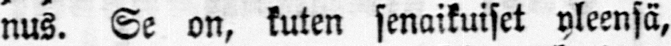nus. Se on, kuten senaikaiset yleensä,
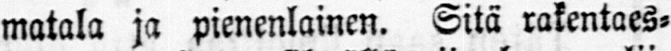matala ja pienenlainen. Sitä rakentaes-
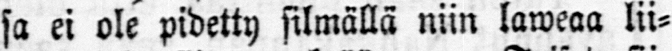sa ei ole pidetty silmällä niin laweaa lii-
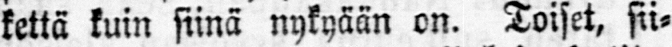kettä kuin siinä nykyään on. Toiset, sii-
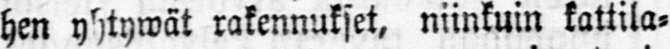hen yhtywät rakennukset, niinkuin kattila-
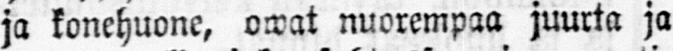ja konehuone, owat nuorempaa juurta ja
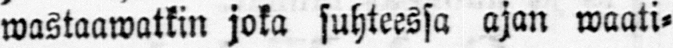wastaawatkin joka suhteessa ajan waati-
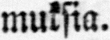muksia.
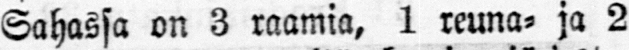Sahassa on 3 raamia, 1 reuna- ja 2
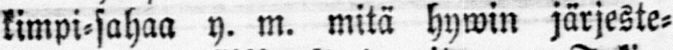kimpi-sahaa y. m. mitä hywin järjeste-
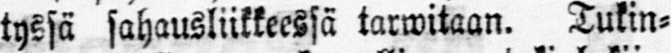tyssä sahausliikkeessä tarwitaan. Tukin-
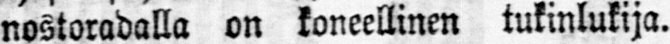nostoradalla on koneellinen tukinlukija.
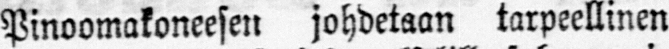Pinoomakoneesen johdetaan tarpeellinen
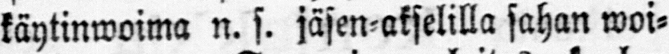käytinwoima n. s. jäsen-akselilla sahan woi-
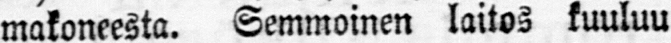makoneesta. Semmoinen laitos kuuluu
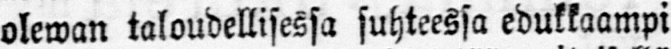olewan taloudellisessa suhteessa edukkaampi
